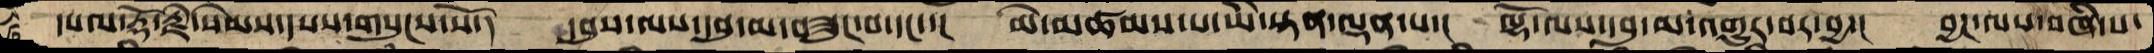དཔལ་རྡོ་རྗེ་སེམས་དཔས་གསུངས་སོ་། དབུས་ལས་དབུ་མ་བཟུང་བ་དང་་།  མེ་མཚམས་པ་ཡི་སྟན་ལྡན་པ་། ལྷོ་ལས་དབུ་མ་འགྱུར་བར་བྱ་། བྱང་ལས་བཞི་པ་
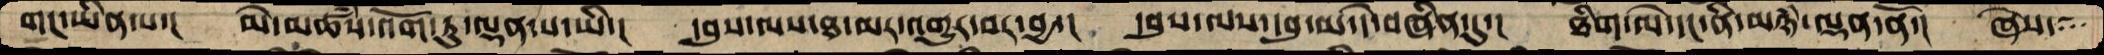གང་ཡིན་པ་།  མེ་མཚཾས་འོག་ཏུ་ལྡན་པ་ཡི་།  དབུས་ལས་ཐ་མར་འགྱུར་བར་བྱ་།  དབུས་ལས་དབུ་མ་དེ་བཞིན་དུ་།  ཐིག་ལེ་དང་ནི་མཉཾ་ལྡན་ནོ་།  ཞེས་
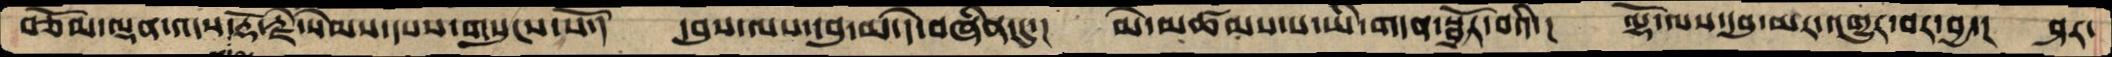བཅོམ་ལྡན་འདས་རྡོ་རྗེ་སེམས་དཔས་གསུངས་སོ་།  དབུས་ལས་དབུ་མ་དེ་བཞིན་དུ་།  མེ་མཚམས་པ་ཡི་གདན་སྦྱོར་བའི་།  ལྷོ་ལས་དབུ་མར་འགྱུར་བར་བྱ་།  ཤར་
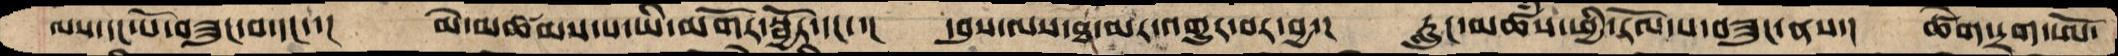ལས་དང་པོ་བཟུང་བ་དང་་།  མེ་མཚམས་པ་ཡི་མགོར་སྦྱོར་དང་་།  དབུས་ལས་ཐ་མར་འགྱུར་བར་བྱ་།  རླུང་མཚཾས་ཕྱི་རོལ་པ་བཟུང་ནས་།  ཚེག་དྲག་ཨོ་
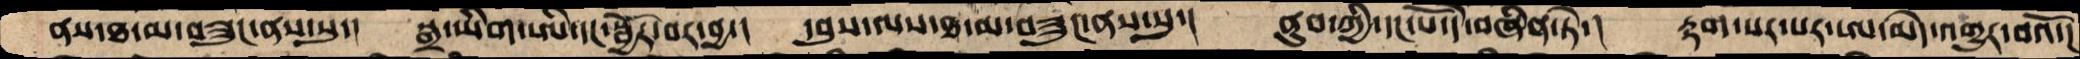ནས་ཐ་མ་བཟུང་ནས་སུ་།  སྒྲ་ཡིག་ཨི་དང་སྦྱོར་བར་བྱ་།  དབུས་ལས་ཐ་མ་བཟུང་ནས་སུ་།  ནུབ་ཀྱི་དང་པོ་དེ་བཞིན་ཏེ་།  རྟག་པར་པར་ཨ་མེད་འགྱུར་བའོ་།
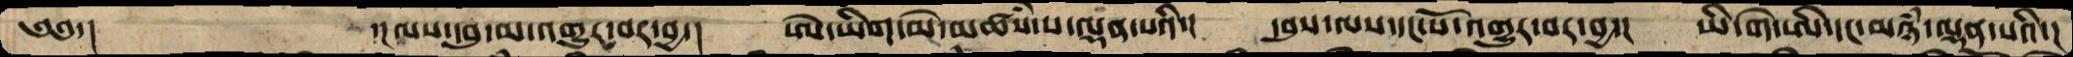༄༅་།     ་།ལས་དབུ་མ་འགྱུར་བར་བྱ་།  ཨེ་ཡིག་མེ་མཚཾས་པ་ལྡན་པའི་།  དབུས་ལས་དང་པོ་འགྱུར་བར་བྱ་།  ཡི་གེ་ཨི་དང་མཉཾ་ལྡན་པའི་།
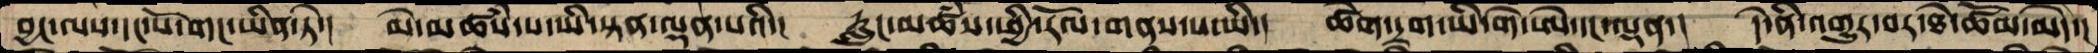བྱང་ལས་དང་པོ་གང་ཡིན་ཏེ་།  མེ་མཚཾས་པ་ཡི་སྟན་ལྡན་པའི་།  རླུང་མཚཾས་ཕྱི་རོལ་གནས་པ་ཡི་།  ཚེག་དྲག་ཡི་གེ་ཨེ་དང་ལྡན་།  དེ་ནི་འགྱུར་བར་ཐེ་ཚོམ་མེད་།
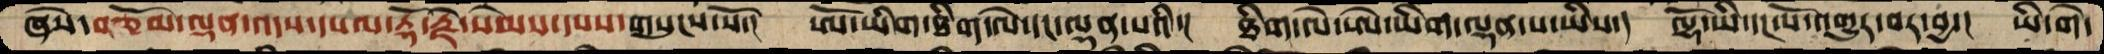ཞེས་བཅོམ་ལྡན་འདས་དཔལ་རྡོ་རྗེ་སེམས་དཔས་གསུངས་སོ་།  ཨོ་ཡིག་ཐིག་ལེ་དང་ལྡན་པའི་།  ཐིག་ལེ་ཨེ་ཡིག་ལྡན་པ་ཡིས་།  ལྷོ་ཡི་དང་པོ་འགྱུར་བར་བྱ་།  ཡི་གེ་
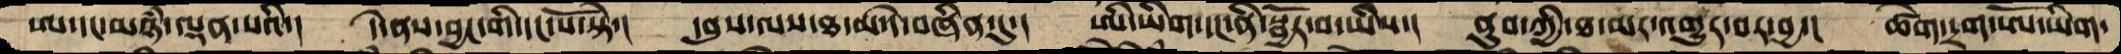ཨ་དང་མཉཾ་ལྡན་པའི་།  དེ་ནས་བྱང་གི་དང་པོ་སྟེ་།  དབུས་ལས་ཐ་མ་དེ་བཞིན་དུ་།  ཨི་ཡིག་དང་ནི་སྦྱོར་བ་ཡིས་། ནུབ་ཀྱི་ཐ་མར་འགྱུར་བར་བྱ་།  ཚེག་དྲག་ཨོ་ཡིག་
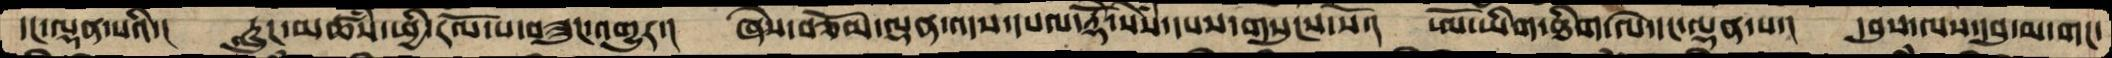དང་ལྡན་པའི་།  རླུང་མཚཾས་ཕྱི་རོལ་པ་བཟུང་འགྱུར་།  ཞེས་བཅོམ་ལྡན་འདས་དཔལ་རྡོེ་སེཾས་དཔས་གསུངས་སོ་།  ཨོ་ཡིག་ཐིག་ལེ་དང་ལྡན་པ་།  དབུས་ལས་དབུ་མ་གང་
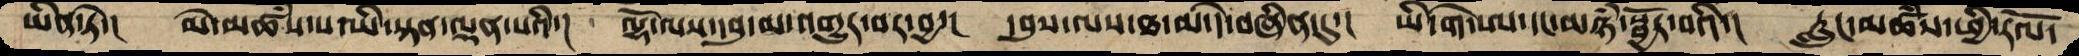ཡིན་ཏེ་།  མེ་མཚཾས་པ་ཡི་སྟན་ལྡན་པའི་།  ལྷོ་ལས་དབུ་མ་འགྱུར་བར་བྱ་།  དབུས་ལས་ཐ་མ་དེ་བཞིན་དུ་།  ཡི་གེ་ཨ་དང་མཉཾ་སྦྱོར་བའི་།  རླུང་མཚཾས་ཕྱི་རོལ་
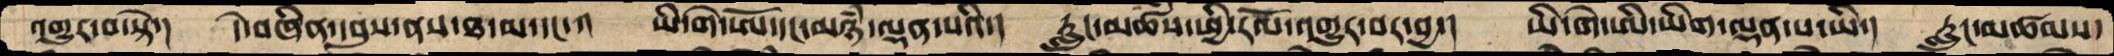འགྱུར་བ་སྟེ་།  དེ་བཞིན་དབུས་ནས་ཐ་མ་དང་་།  ཡི་གེ་ཨོ་དང་མཉཾ་ལྡན་པའི་།  རླུང་མཚཾས་ཕྱི་རོལ་འགྱུར་བར་བྱ་།  ཡི་གེ་ཨི་ཡིག་ལྡན་པ་ཡི་།  རླུང་མཚམས་
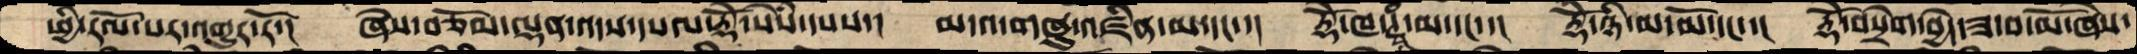ཕྱི་རོལ་པར་འགྱུར་རོ་།  ཞེས་བཅོམ་ལྡན་འདས་དཔལ་རྡོེ་སེཾས་དཔས་།  མདའ་གཞུ་འཛིན་མ་དང་་།  རྡོེ་ཁ་ཊྭཱཾ་མ་དང་་།  རྡོེ་ཉི་མ་མོ་དང་་།  རྡོེ་བསྲེག་བྱེད་ཟ་བ་མོ་ཞེས་
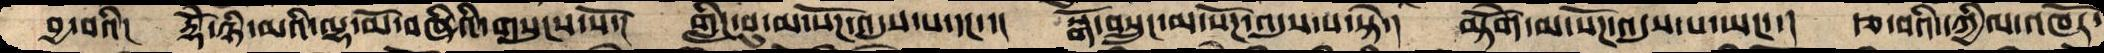བྱ་བའི་།  རྡོེ་ཉི་མའི་ལྷ་མོ་བཞིའི་གསུངས་སོ་།  གླིང་བུ་མ་སོཌ་འདུས་པ་དང་་།  སྒོ་བསྲུང་མ་སོཌ་འདུས་པ་སྟེ་།  མྟེོག་མ་སོཌ་འདུས་པ་ཡང་་།  རྩ་བའི་དཀྱིལ་འཁོར་
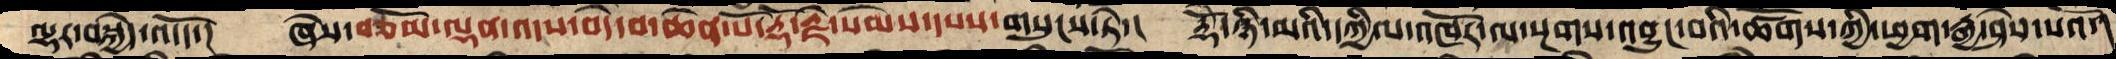ལྷར་བསྐྱེད་འདོད་།  ཞེས་བཅོམ་ལྡན་འདས་བདེ་བ་ཆེན་པོ་རྡོ་རྗེ་སེམས་དཔས་གསུངས་ཏེ་།  རྡོེ་ཉི་མའི་དཀྱིལ་འཁོར་ལ་སྔགས་འབྱུང་བའི་ཚོགས་ཀྱི་ཕྱག་རྒྱ་ཤེས་པའོ་།
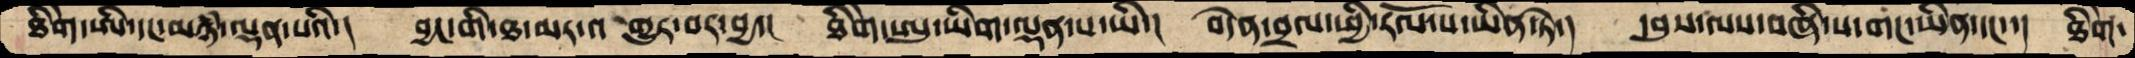ཐིེག་ཨི་དང་མཉཾ་ལྡན་པའི་།  བྱང་གི་ཐ་མར་འ གྱུར་བར་བྱ་།  ཐིེག་ཨུ་ཡིག་ལྡན་པ་ཡི་།  བདེན་བྲལ་ཕྱི་རོལ་པ་ཡིན་ཏེ་།  དབུས་ལས་བཞི་པ་གང་ཡིན་དང་་།  ཐིེག་
